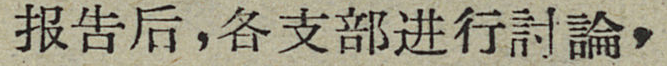报告后，各支部进行討論，
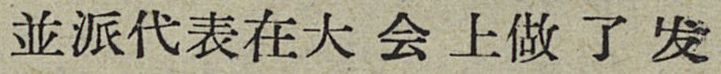並派代表在大会上做了发
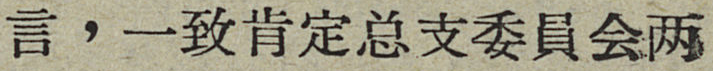言，一致肯定总支委員会两
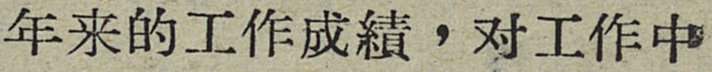年来的工作成績，对工作中
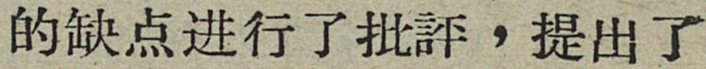的缺点进行了批評，提出了
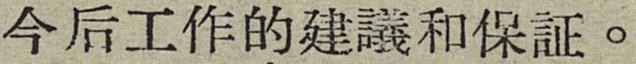今后工作的建議和保証。
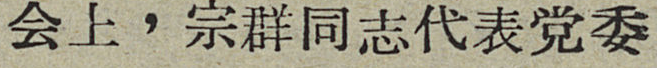会上，宗群同志代表党委
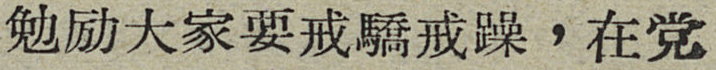勉励大家要戒驕戒躁，在党
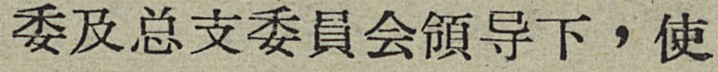委及总支委員会領导下，使
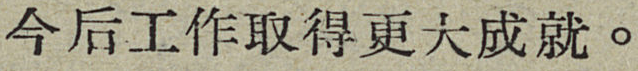今后工作取得更大成就。
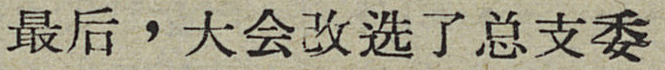最后，大会改选了总支委
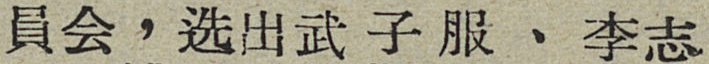員会，选出武子服、李志
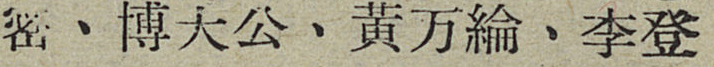密、博大公、黄万綸、李登
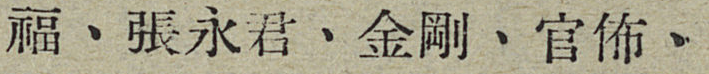福、張永君、金剛、官佈、
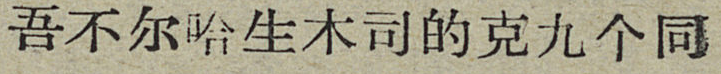吾不尔哈生木司的克九个同
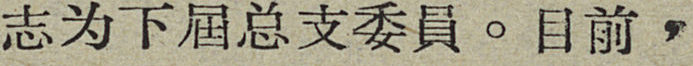志为下屆总支委員。目前，
